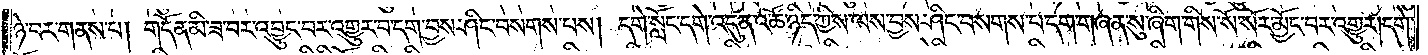ཉེ་བར་གནས་པ། གདོན་མི་ཟ་བར་འབྱུང་བར་འགྱུར་བ་དག་བྱས་ཤིང་བསགས་པས། དགེ་སློང་དགེ་འདུན་འཚོ་ཉིད་ཀྱིས་ལས་བྱས་ཤིང་བསགས་པ་དག་གཞན་སུ་ཞིག་གིས་སོ་སོར་མྱོང་བར་འགྱུར། དགེ་
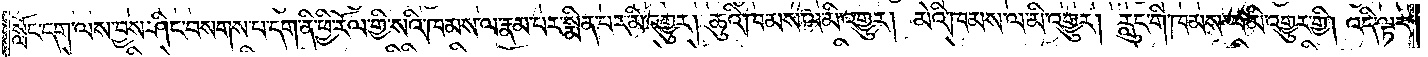སློང་དག་ལས་བྱས་ཤིང་བསགས་པ་དག་ནི་ཕྱི་རོལ་གྱི་སའི་ཁམས་ལ་རྣམ་པར་སྨིན་པར་མི་འགྱུར། ཆུའི་ཁམས་ལ་མི་འགྱུར། མེའི་ཁམས་ལ་མི་འགྱུར། རླུང་གི་ཁམས་ལ་མི་འགྱུར་གྱི། འདི་ལྟར་
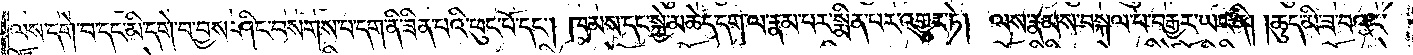ལས་དགེ་བ་དང་མི་དགེ་བ་བྱས་ཤིང་བསགས་པ་དག་ནི་ཟིན་པའི་ཕུང་པོ་དང༌། ཁམས་དང་སྐྱེ་མཆེད་དག་ལ་རྣམ་པར་སྨིན་པར་འགྱུར་ཏེ། ལས་རྣམས་བསྐལ་པ་བརྒྱར་ཡང་ནི། །ཆུད་མི་ཟ་བའང་
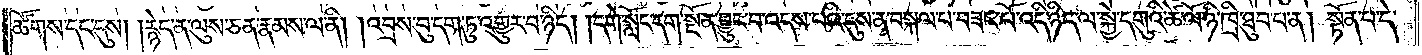ཚོགས་དང་དུས། །རྙེད་ན་ལུས་ཅན་རྣམས་ལ་ནི། །འབྲས་བུ་དག་ཏུ་འགྱུར་བ་ཉིད། །དགེ་སློང་དག་སྔོན་བྱུང་བ་འདས་པའི་དུས་ན་བསྐལ་པ་བཟང་པོ་འདི་ཉིད་ལ་སྐྱེ་དགུའི་ཚེ་ལོ་ཉི་ཁྲི་ཐུབ་པ་ན། སྟོན་པ་དེ་
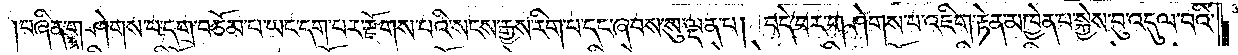བཞིན་གཤེགས་པ་དགྲ་བཅོམ་པ་ཡང་དག་པར་རྫོགས་པའི་སངས་རྒྱས་རིག་པ་དང་ཞབས་སུ་ལྡན་པ། བདེ་བར་གཤེགས་པ་འཇིག་རྟེན་མཁྱེན་པ་སྐྱེས་བུ་འདུལ་བའི་
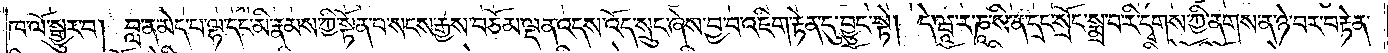ཁ་ལོ་སྒྱུར་བ། བླ་ན་མེད་པ་ལྷ་དང་མི་རྣམས་ཀྱི་སྟོན་པ་སངས་རྒྱས་བཅོམ་ལྡན་འདས་འོད་སྲུང་ཞེས་བྱ་བ་འཇིག་རྟེན་དུ་བྱུང་སྟེ། དེ་ཝཱ་ར་ཎཱ་སི་ན་དྲང་སྲོང་སྨྲ་བ་རི་དྭགས་ཀྱི་ནགས་ན་ཉེ་བར་བརྟེན་
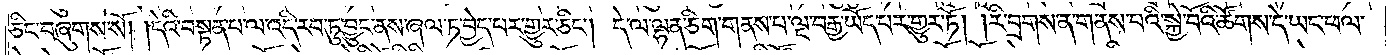ཅིང་བཞུགས་སོ། །དེའི་བསྟན་པ་ལ་འདི་རབ་ཏུ་བྱུང་ནས་ཞལ་ཏ་བྱེད་པར་གྱུར་ཅིང༌། དེ་ལ་ལྷན་ཅིག་གནས་པ་ལྔ་བརྒྱ་ཡོད་པར་གྱུར་ཏོ། །རི་བྲགས་ན་གནས་པའི་སྐྱེ་བོའི་ཚོགས་དེ་ཡང་ཕལ་
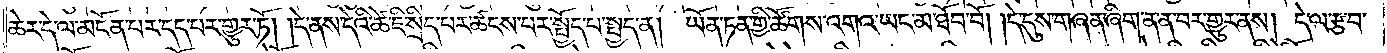ཆེར་དེ་ལ་མངོན་པར་དད་པར་གྱུར་ཏོ། །དེ་ནས་དེའི་ཚེ་ཇི་སྲིད་པར་ཚངས་པར་སྤྱོད་པ་སྤྱད་ན། ཡོན་ཏན་གྱི་ཚོགས་འགའ་ཡང་མ་ཐོབ་བོ། །དེ་དུས་གཞན་ཞིག་ན་ན་བར་གྱུར་ནས། དེ་ལ་རྩ་བ་
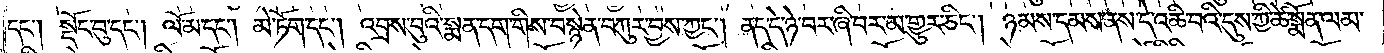དང༌། སྡོང་བུ་དང༌། ལོ་མ་དང༌། མེ་ཏོག་དང༌། འབྲས་བུའི་སྨན་དག་གིས་བསྙེན་བཀུར་བྱས་ཀྱང༌། ནད་དེ་ཉེ་བར་ཞི་བར་མ་གྱུར་ཅིང༌། ཉམས་དམས་ནས་དེ་འཆི་བའི་དུས་ཀྱི་ཚེ་སྨོན་ལམ་
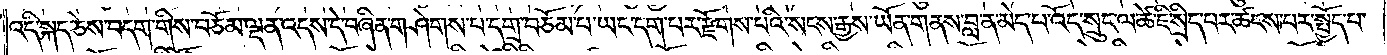འདི་སྐད་ཅེས་བདག་གིས་བཅོམ་ལྡན་འདས་དེ་བཞིན་གཤེགས་པ་དགྲ་བཅོམ་པ་ཡང་དག་པར་རྫོགས་པའི་སངས་རྒྱས་ཡོན་གནས་བླ་ན་མེད་པ་འོད་སྲུང་ལ་ཚེ་ཇི་སྲིད་པར་ཚངས་པར་སྤྱོད་པ་
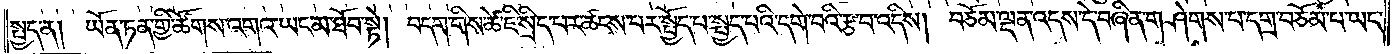སྤྱད་ན། ཡོན་ཏན་གྱི་ཚོགས་འགའ་ཡང་མ་ཐོབ་སྟེ། བདག་གིས་ཚེ་ཇི་སྲིད་པར་ཚངས་པར་སྤྱོད་པ་སྤྱད་པའི་དགེ་བའི་རྩ་བ་འདིས། བཅོམ་ལྡན་འདས་དེ་བཞིན་གཤེགས་པ་དགྲ་བཅོམ་པ་ཡང་
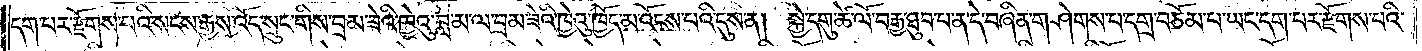དག་པར་རྫོགས་པའི་སངས་རྒྱས་འོད་སྲུང་གིས་བྲམ་ཟེའི་ཁྱེའུ་བླ་མ་ལ་བྲམ་ཟེའི་ཁྱེའུ་ཁྱོད་མ་འོངས་པའི་དུས་ན། སྐྱེ་དགུ་ཚེ་ལོ་བརྒྱ་ཐུབ་པ་ན་དེ་བཞིན་གཤེགས་པ་དགྲ་བཅོམ་པ་ཡང་དག་པར་རྫོགས་པའི་
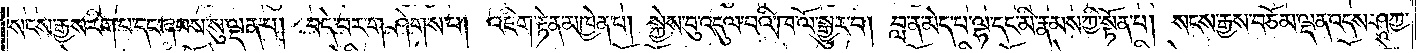སངས་རྒྱས་རིག་པ་དང་ཞབས་སུ་ལྡན་པ། བདེ་བར་གཤེགས་པ། འཇིག་རྟེན་མཁྱེན་པ། སྐྱེས་བུ་འདུལ་བའི་ཁ་ལོ་སྒྱུར་བ། བླ་ན་མེད་པ་ལྷ་དང་མི་རྣམས་ཀྱི་སྟོན་པ། སངས་རྒྱས་བཅོམ་ལྡན་འདས་ཤཱཀྱ་
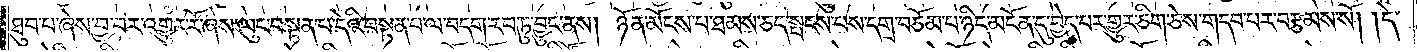ཐུབ་པ་ཞེས་བྱ་བར་འགྱུར་རོ་ཞེས་ལུང་བསྟན་པ་དེའི་བསྟན་པ་ལ་བདག་རབ་ཏུ་བྱུང་ནས། ཉོན་མོངས་པ་ཐམས་ཅད་སྤངས་པས་དགྲ་བཅོམ་པ་ཉིད་མངོན་དུ་བྱེད་པར་གྱུར་ཅིག་ཅེས་གདབ་པར་བརྩམས་སོ། །དེ་
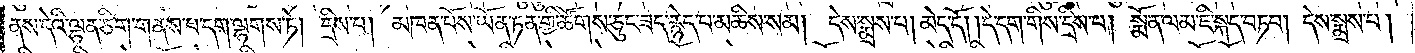ནས་དེའི་ལྷན་ཅིག་གནས་པ་དག་ལྷགས་ཏེ། དྲིས་པ། མཁན་པོས་ཡོན་ཏན་གྱི་ཚོགས་ཅུང་ཟད་རྙེད་པ་མཆིས་སམ། དེས་སྨྲས་པ། མེད་དོ། །དེ་དག་གིས་དྲིས་པ། སྨོན་ལམ་ཇི་སྐད་བཏབ། དེས་སྨྲས་པ།
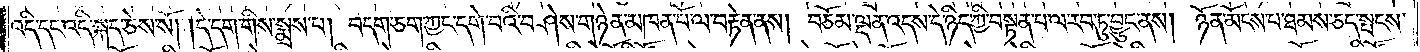འདི་དང་འདི་སྐད་ཅེས་སོ། །དེ་དག་གིས་སྨྲས་པ། བདག་ཅག་ཀྱང་དགེ་བའི་བཤེས་གཉེན་མཁན་པོ་ལ་བརྟེན་ནས། བཅོམ་ལྡན་འདས་དེ་ཉིད་ཀྱི་བསྟན་པ་ལ་རབ་ཏུ་བྱུང་ནས། ཉོན་མོངས་པ་ཐམས་ཅད་སྤངས་
